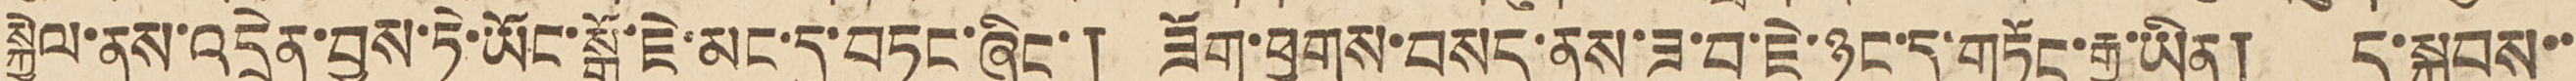སྐྱེལ་ནས་འདྲེན་བྱས་ཏེ་ཡོང་སྒོ་ཇེ་མང་དུ་བཏང་ཞིང་། ཟོག་ཕྱུགས་བསད་ནས་ཟ་བ་ཇེ་ཉུང་དུ་གཏོང་རྒྱུ་ཡིན། ད་སྐབས་་
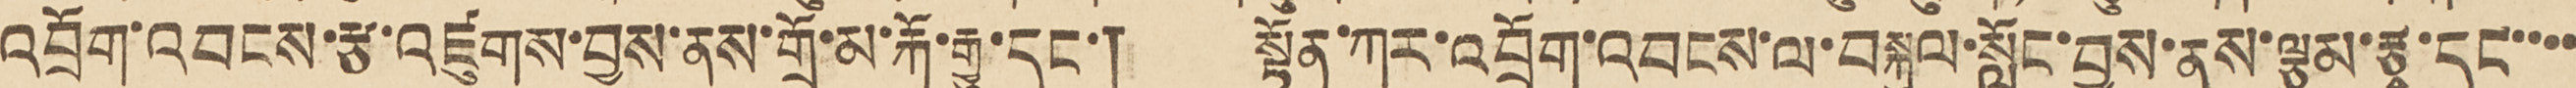འབྲོག་འབངས་རྩ་འཛུགས་བྱས་ནས་གྲོ་མ་རྐོ་རྒྱུ་དང་། སྟོན་ཀར་འབྲོག་འབངས་ལ་བསྐུལ་སློང་བྱས་ནས་ལྕུམ་རྩྭ་དང་་་་
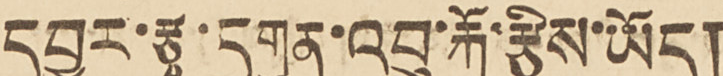དབྱར་རྩྭ་དགུན་འབུ་རྐོ་རྩིས་ཡོད།
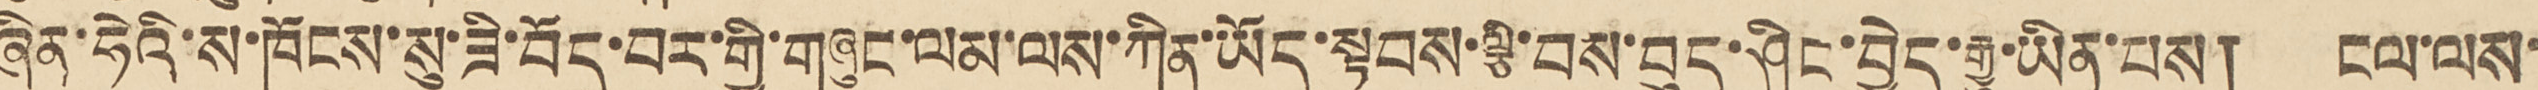ཞིན་ཧེའི་ས་ཁོངས་སུ་ཟི་བོད་བར་གྱི་གཞུང་ལམ་ལས་ཀིན་ཡོད་སྟབས་ལྕི་བས་བུད་ཤིང་བྱེད་རྒྱུ་ཡིན་པས། ངལ་ལས་
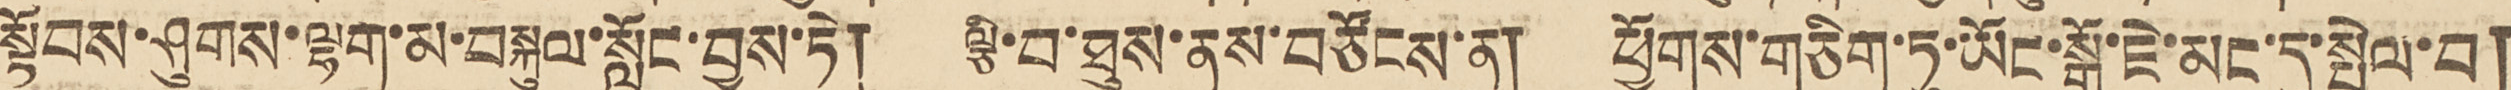སྟོབས་ཤུགས་ལྷག་མ་བསྐུལ་སློང་བྱས་ཏེ། ལྕི་བ་ཐུས་ནས་བཙོངས་ན། ཕྱོགས་གཅིག་ཏུ་ཡོང་སྒོ་ཇེ་མང་དུ་སྤེལ་བ།
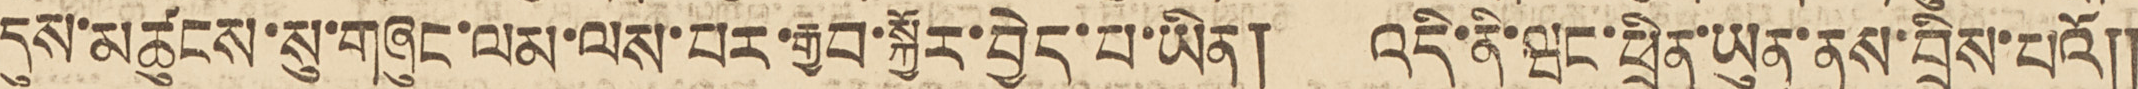དུས་མཚུངས་སུ་གཞུང་ལམ་ལས་པར་རྒྱབ་སྐྱོར་བྱེད་པ་ཡིན། འདི་ནི་ཝང་ཕྲིན་ཡུན་ནས་བྲིས་པའོ༎
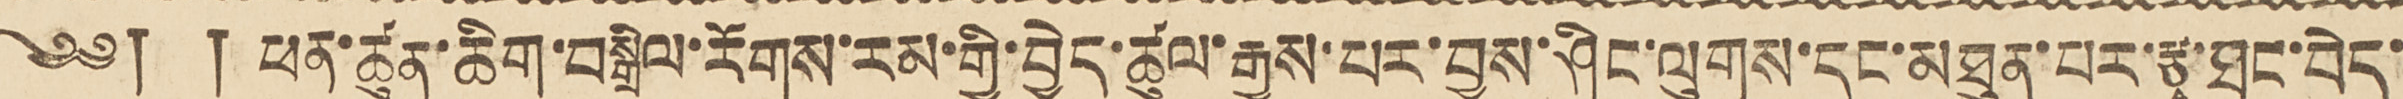༄༅། ། ཕན་ཚུན་ཆིག་བསྒྲིལ་རོགས་རམ་གྱི་བྱེད་ཚུལ་རྒྱས་པར་བྱས་ཤིང་ལུགས་དང་མཐུན་པར་རྩྭ་ཐང་བེད་
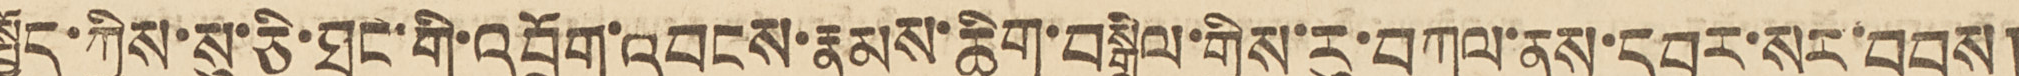སྤྱོད་ཀྱིས་སུ་ཅི་ཐང་གི་འབྲོག་འབངས་རྣམས་ཆིག་བསྒྲིལ་གྱིས་རུ་བཀལ་ནས་དབྱར་སང་བབས།
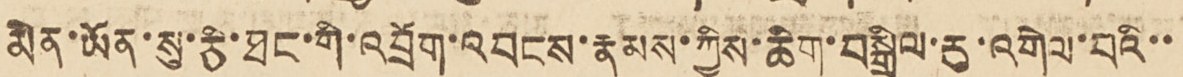མེན་ཡོན་སུ་ཅི་ཐང་གི་འབྲོག་འབངས་རྣམས་ཀྱིས་ཆིག་བསྒྲིལ་རུ་འགེལ་བའི་་
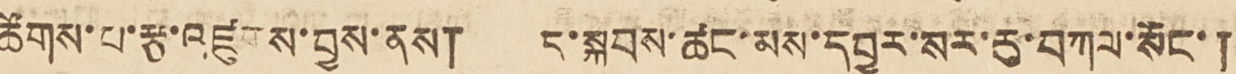ཚོགས་པ་རྩ་འཛུགས་བྱས་ནས། ད་སྐབས་ཚང་མས་དབྱར་སར་རུ་བཀལ་སོང་།
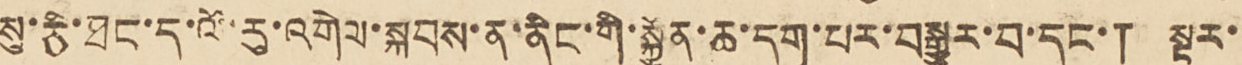སུ་ཅི་ཐང་ད་ལོ་རུ་འགེལ་སྐབས་ན་ནིང་གི་སྐྱོན་ཆ་དག་པར་བསྒྱུར་བ་དང་། སྔར་
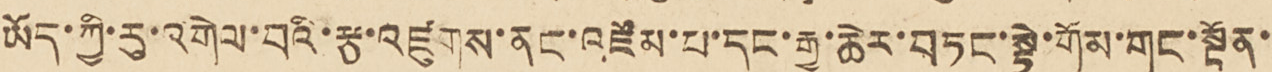ཡོད་ཀྱི་རུ་འགེལ་བའི་རྩ་འཛུགས་ནང་འཛོམ་པ་དང་རྒྱ་ཆེར་བཏང་སྟེ་གོམ་གང་སྔོན་
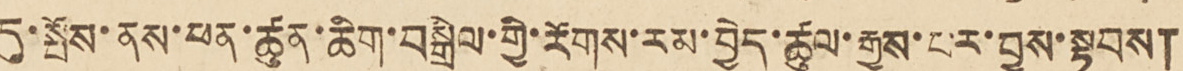དུ་སྤོས་ནས་ཕན་ཚུན་ཆིག་བསྒྲིལ་གྱི་རོགས་རམ་བྱེད་ཚུལ་རྒྱས་པར་བྱས་སྟབས།
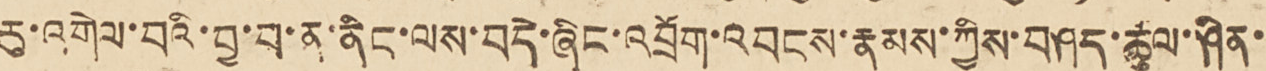རུ་འགེལ་བའི་བྱ་བ་ན་ནིང་ལས་བདེ་ཞིང་འབྲོག་འབངས་རྣམས་ཀྱིས་བཤད་ཚུལ་ཤིན་
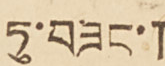ཏུ་བཟང་།
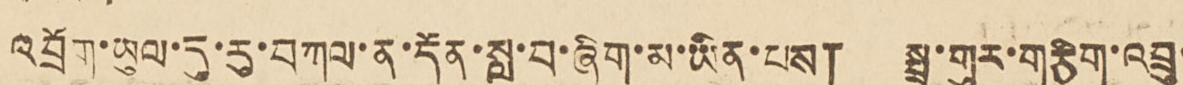འབྲོག་ཡུལ་དུ་རུ་བཀལ་ན་དོན་སླ་བ་ཞིག་མ་ཡིན་པས། སྦྲ་གུར་གཅིག་འབྲུ་
